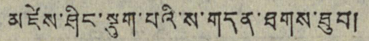མཛེས་ཤིང་སྡུག་པའི་ས་གདན་ཐུགས་ཐུབ།
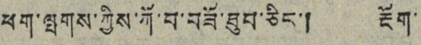ཕག་སྤྲགས་ཀྱིས་ཀོ་བ་བཟོ་ཐུབ་ཅིང་། རྔོག་
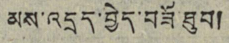མས་འདྲུད་བྱེད་བཟོ་ཐུབ།
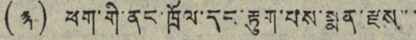(༣) ཕག་གི་ནང་ཁྲོལ་དང་ཇུག་པས་སྨན་རྫས་་
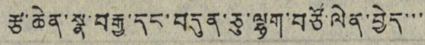རྩ་ཆེན་སྣ་བརྒྱ་དང་བདུན་ཅུ་ལྷག་བཙོ་ལེན་བྱེད་་་
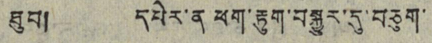ཐུབ། དཔེར་ན ཕག་རུག་བསྒྱུར་དུ་བཅུག་
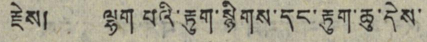རྗེས། ལྷག པའི་ཇུག་སྙིགས་དང་ཇུག་ཆུ་དེས་
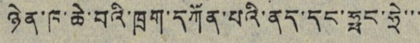ཉེན་ཁ་ཆེ་བའི་ཁྲག་དཀོན་པའི་ནད་དང་ཧྥང་ཧྲེ་་་
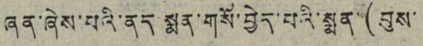ཞན་ཞེས་པའི་ནད་སྨན་གསོ་བྱེད་པའི་སྨན་(བུས་
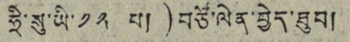ཧྲི་སུ་ཡི་ ༡༢ པ། )བཙོ་ལེན་བྱེད་ཐུབ།
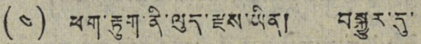(༤) ཕག་ཇུག་ནི་ལུད་རྫས་ཡིན། བསྒྱུར་དུ་
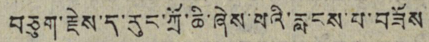བཅུག་རྗེས་ད་རུང་ཀྲོ་ཆི་ཞེས་པའི་རླངས་པ་བཟོས
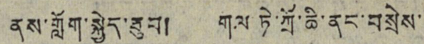ནས་གློག་སྐྱེད་ཐུབ། གལ་ཏེ་ཀྲོ་ཆི་ནང་བསྲེས་
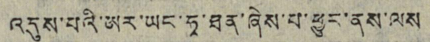འདུས་པའི་ཨར་ཡང་ཧྭ་ཐན་ཞེས་པ་ཕྱུར་ནས་ལས
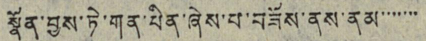སྣོན་བྱས་ཏེ་གན་པིན་ཞེས་པ་བཟོས་ནས་ནམ་་་་་་་
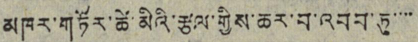མཁར་གཏོར་ཚེ་མིའི་རྩལ་གྱིས་ཆར་བ་འབབ་ཏུ་་་་་
